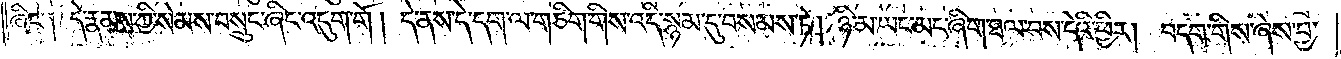ཞིང༌། དེ་རྣམས་ཀྱི་སེམས་བསྲུང་ཞིང་འདུག་གོ། དེ་ནས་དེ་དག་ལ་གཅིག་གིས་འདི་སྙམ་དུ་བསམས་ཏེ། ཉི་མ་ཡང་མང་ཞིག་ཐལ་བས་དེའི་ཕྱིར། བདག་གིས་ཞེས་བྱ་
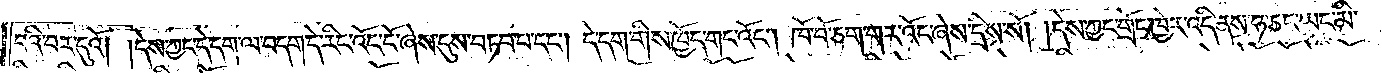བའི་བར་དུའོ། །དེས་ཀྱང་དེ་དག་ལ་བདག་དེ་རིང་འོང་ངོ་ཞེས་དུས་བཏབ་པ་དང༌། དེ་དག་གིས་ཁྱོད་གང་འོང༌། ཁོ་བོ་ཅག་གར་འོང་ཞེས་དྲིས་སོ། །དེས་ཀྱང་གྲོང་ཁྱེར་འདི་ནས་ཧ་ཅང་ཡང་མི་
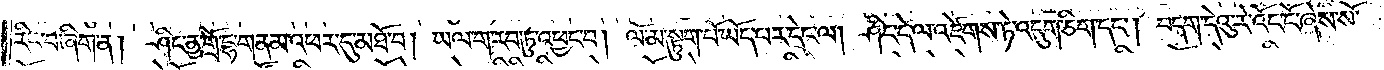རིང་བ་ཞིག་ན། ཤིང་ནྱ་གྲོ་དྷ་གནམ་འཕར་དུ་མཐོ་བ། ཡལ་ག་རབ་ཏུ་འཕྱང་བ། ལོ་མ་སྟུག་པོ་ཡོད་པར་དེང་ལ། ཤིང་དེ་ལ་འཛེགས་ཏེ་འདུག་ཅིག་དང༌། བདག་དེའུ་རེ་འོང་ངོ་ཞེས་སོ་
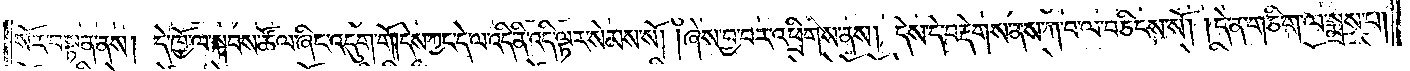སོར་བསྟན་ནས། དེ་ཁྱོ་ལ་སྐབས་ཚོལ་ཞིང་འདུག་གོ། དེས་ཀྱང་དེ་ལ་འདི་ནི་འདི་ལྟར་སེམས་སོ། །ཞེས་བྱ་བར་འཕྲིགས་ནས། དེས་དེ་བརྡེགས་ནས་ཀ་བ་ལ་བཅིངས་སོ། །དེ་ན་གཅིག་ལ་སྨྲས་པ།
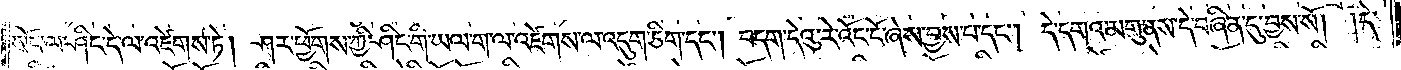སོང་ལ་ཤིང་དེ་ལ་འཛེགས་ཏེ། ཤར་ཕྱོགས་ཀྱི་ཤིང་གི་ཡལ་ག་ལ་འཛེགས་ལ་འདུག་ཅིག་དང༌། བདག་དེའུ་རེ་འོང་ངོ་ཞེས་བྱས་པ་དང༌། དེ་དགའ་མགུ་ནས་དེ་བཞིན་དུ་བྱས་སོ། །དེ་
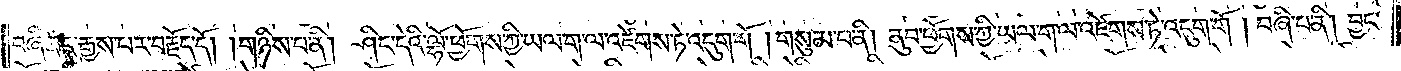བཞིན་དུ་རྒྱས་པར་བརྗོད་དོ། །གཉིས་པ་ནི། ཤིང་དེའི་ལྷོ་ཕྱོགས་ཀྱི་ཡལ་ག་ལ་འཛེགས་ཏེ་འདུག་གོ །གསུམ་པ་ནི། ནུབ་ཕྱོགས་ཀྱི་ཡལ་ག་ལ་འཛེགས་ཏེ་འདུག་གོ། བཞི་པ་ནི། བྱང་
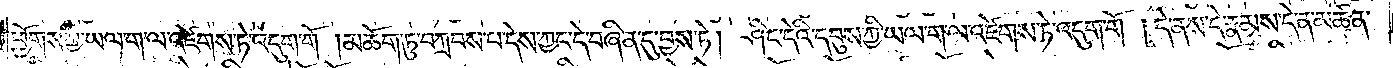ཕྱོགས་ཀྱི་ཡལ་ག་ལ་འཛེགས་ཏེ་འདུག་གོ །མཆོག་ཏུ་བཀྲབས་པ་དེས་ཀྱང་དེ་བཞིན་དུ་བྱས་ཏེ། ཤིང་དེའི་དབུས་ཀྱི་ཡལ་ག་ལ་འཛེགས་ཏེ་འདུག་གོ །དེ་ནས་དེ་རྣམས་དེ་ན་མཚན་
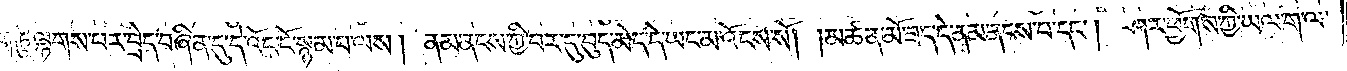གཅིག་ཏུ་ལྷགས་པར་བྲེད་བཞིན་དུ་དེ་འོང་ངོ་སྙམ་པ་ལས། ནམ་ནངས་ཀྱི་བར་དུ་བུད་མེད་དེ་ཡང་མ་འོངས་སོ། །མཚན་མོ་ཟད་དེ་ནམ་ནངས་པ་དང༌། ཤར་ཕྱོགས་ཀྱི་ཡལ་ག་ལ་
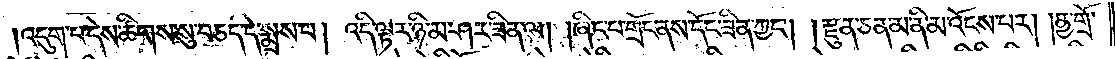འདུག་པ་དེས་ཚིགས་སུ་བཅད་དེ་སྨྲས་པ། འདི་ལྟར་ཉི་མ་ཤར་ཟིན་ལ། །ཞིང་པ་གྲོང་ནས་དོང་ཟིན་ཀྱང༌། །རྫུན་ཅན་མ་ནི་མ་འོངས་པར། །ནྱ་གྲོ་
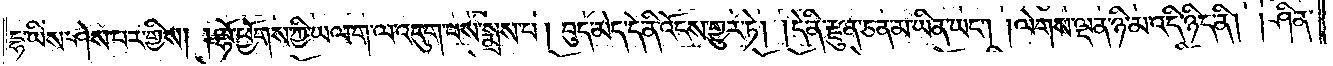དྷ་ཡིས་ཤེས་པར་གྱིས། །ལྷོ་ཕྱོགས་ཀྱི་ཡལ་ག་ལ་འདུག་པས་སྨྲས་པ། བུད་མེད་དེ་ནི་འོངས་གྱུར་ཏེ། །དེ་ནི་རྫུན་ཅན་མ་ཡིན་ཡང༌། །ལེགས་ལྡན་ཉི་མ་འདི་ཉིད་ནི། །ཤིན་
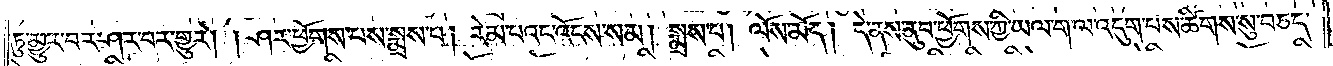ཏུ་མྱུར་བར་ཤར་བར་གྱུར། །ཤར་ཕྱོགས་པས་སྨྲས་པ། རེམ་པའང་འོངས་སམ། སྨྲས་པ། ལོས་མོད། དེ་ནས་ནུབ་ཕྱོགས་ཀྱི་ཡལ་ག་ལ་འདུག་པས་ཚིགས་སུ་བཅད་
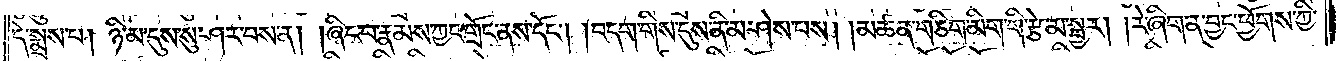དེ་སྨྲས་པ། ཉི་མ་དུས་སུ་ཤར་བས་ན། །ཞིང་པ་རྣམས་ཀྱང་གྲོང་ནས་དོང༌། །བདག་གིས་དུས་ནི་མ་ཤེས་པས། །མཚན་གཅིག་མིག་གི་རྩེ་མ་སྦྱར། །རེ་ཞིག་ན་བྱང་ཕྱོགས་ཀྱི་
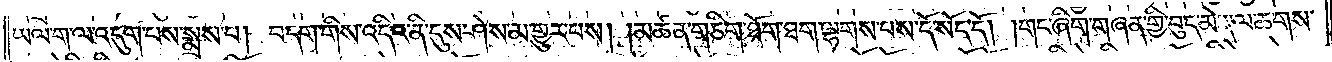ཡལ་ག་ལ་འདུག་པས་སྨྲས་པ། བདག་གིས་འདིར་ནི་དུས་ཤེས་མ་གྱུར་པས། །མཚན་གཅིག་ཐོག་ཐག་ལྷགས་པས་དོ་སོད་དོ། །གང་ཞིག་གཞན་གྱི་བུད་མེད་ལ་ཆགས་
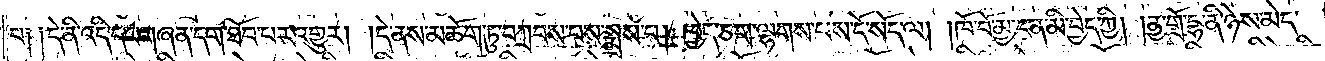པ༑ ༑དེ་ནི་འདི་དང་གཞན་དག་ཐོབ་པར་འགྱུར། །དེ་ནས་མཆོག་ཏུ་བཀྲབས་པས་སྨྲས་པ། ཁྱེད་ཅག་ལྷགས་པས་ངོ་སོད་ལ། །ཁོ་བོ་མྱ་ངན་མི་བྱེད་ཀྱི། །ནྱ་གྲོ་དྷ་ནི་ཉེས་མེད་
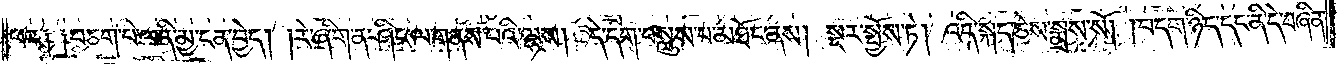པར༑ ༑བཅག་པ་ལ་ནི་མྱ་ངན་བྱེད། །རེ་ཞིག་ན་ཤིང་ལ་གནས་པའི་ལྷས། དེ་དག་བསླུས་པ་མཐོང་ནས། སྔར་སྤྱོས་ཏེ། འདི་སྐད་ཅེས་སྨྲས་སོ། །བདག་ཉིད་དང་ནི་དེ་བཞིན་
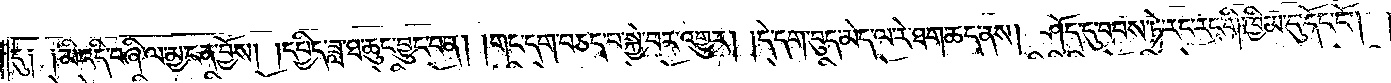དུ༑ ༑མི་འདི་བཞི་ལ་མྱ་ངན་ན་བྱོས། །དཔྱིད་ཟླ་ཐ་ཆུང་བྱུང་བ་ན། །གང་དག་བཅད་པ་སྐྱེ་བར་འགྱུར། །དེ་དག་བུད་མེད་ལ་རེ་ཐག་ཆད་ནས། ཤོད་དུ་བབས་ཏེ་རང་རང་གི་ཁྱིམ་དུ་དོང་ངོ༌། །
